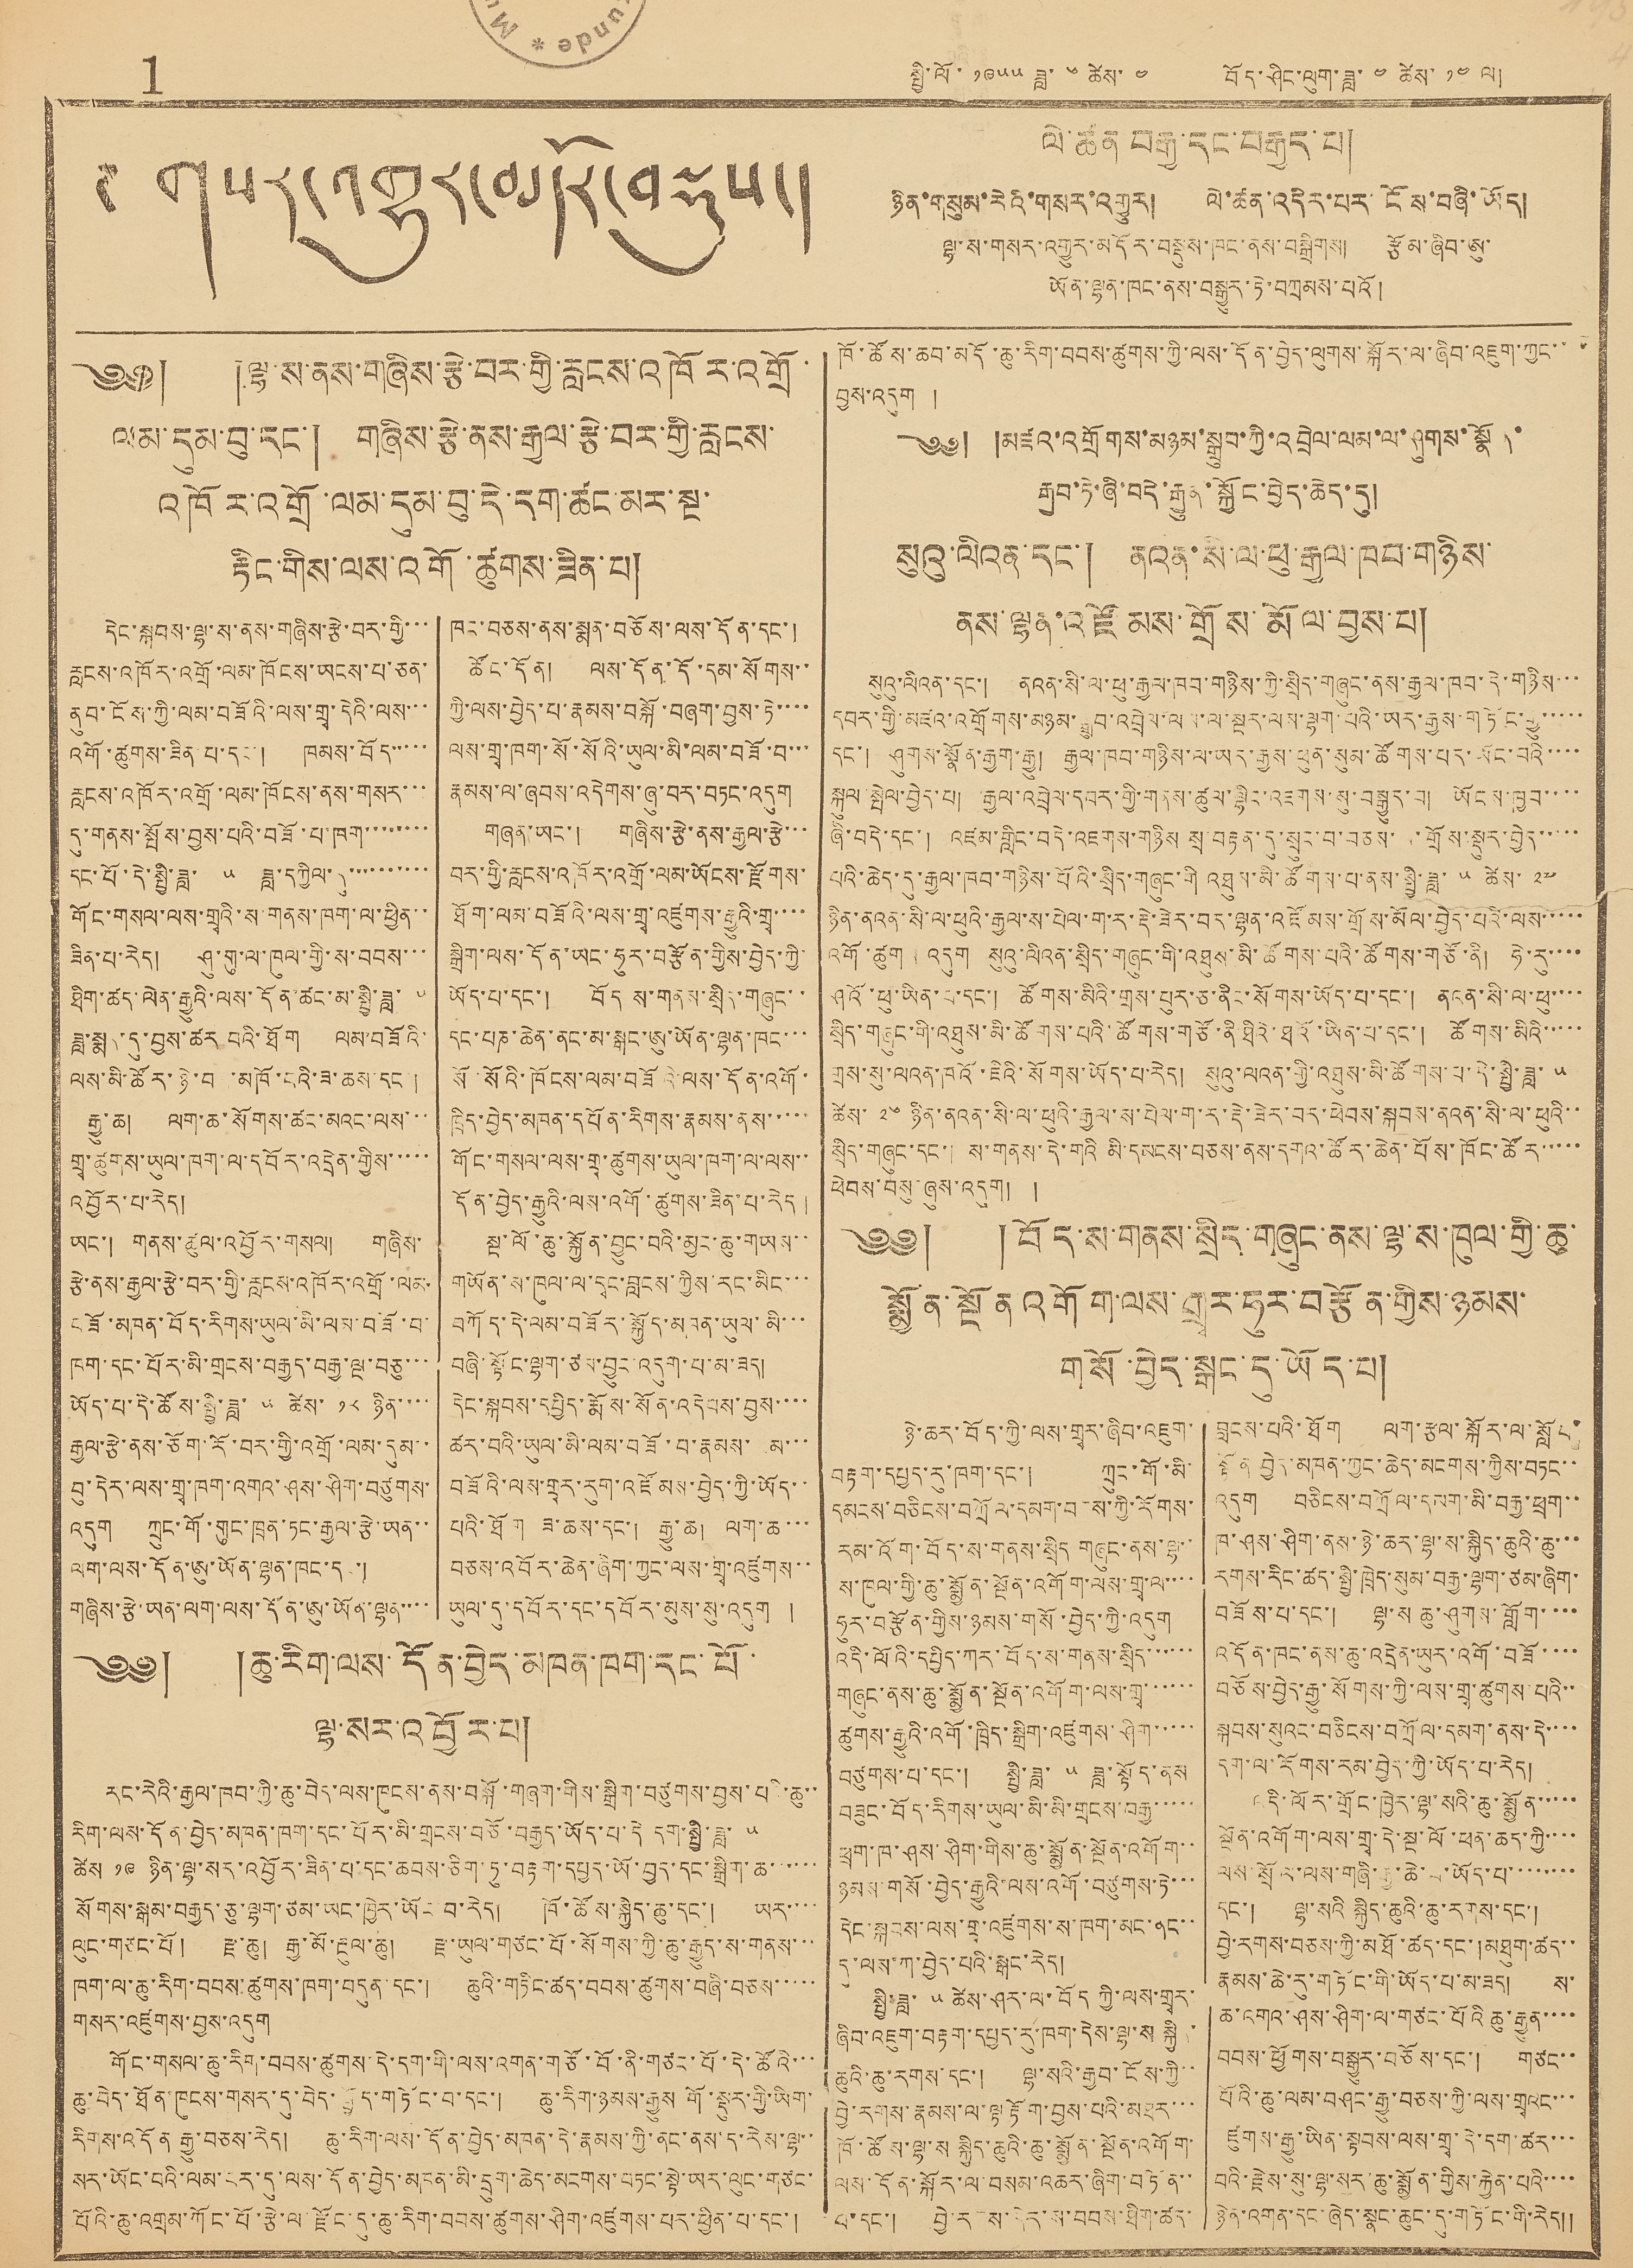1 སྤྱི་ལོ་ ༡༩༥༥ ཟླ་ ༦ ཚེས་ ༤ བོད་ཤིང་ལུག་ཟླ་༤་ཚེས་ ༡༤ ལ།
༈ གསར་འགྱུར་མདོར་བསྡུས་།
ལེ་ཚན་བརྒྱ་དང་བརྒྱད་པ།
ཉིན་གསུམ་རེའི་གསར་འགྱུར། ལེ་ཚན་འདི་པར་ངོས་བཞི་ཡོད།
ལྷ་ས་གསར་འགྱུར་མདོར་བསྡུས་ཁང་ནས་བསྒྲིགས། རྩོམ་ཞིབ་ཨུ་
ཡོན་ལྷན་ཁང་ནས་བསྒྱུར་ཏེ་བཀྲམས་པའོ།
༄༅། །ལྷ་ས་ནས་གཞིས་རྩེ་བར་གྱི་རླངས་འཁོར་འགྲོ་
ལམ་བུ་དང། གཞིས་རྩེ་ནས་རྒྱལ་རྩེ་བར་གྱི་རླངས་
འཁོར་འགྲོ་ལམ་དུམ་བུ་དེ་དག་ཚང་མར་སྔ་
རྟིང་གིས་ལས་འགོ་ཚུགས་ཟིན་པ།
དེང་སྐབས་ལྷ་ས་ནས་གཞིས་རྩེ་བར་གྱི་་་
རླངས་འཁོར་འགྲོ་ལམ་ཁོངས་ཡངས་པ་ཅན་
ནུབ་ངོས་ཀྱི་ལམ་བཟོའི་ལས་གྲྭ་དེའི་ལས་་་
འགོ་ཚུགས་ཟིན་པ་དང་། ཁམས་བོད་་་་་
རླངས་འཁོར་འགྲོ་ལམ་ཁོངས་ནས་གསར་་་
དུ་གནས་སྤོས་བྱས་པའི་བཟོ་པ་ཁག་་་་་་་་
དང་པོ་དེ་སྤྱི་ཟླ་ ༥ ཟླ་དཀྱིལ་དུ་་་་་་་་་་་
གོང་གསལ་ལས་གྲྭའི་ས་གནས་ཁག་ལ་ཕྱིན་་
ཟིན་པ་རེད། ཤུ་གུ་ལ་ཁུལ་གྱི་ས་བབས་་་
ཐིག་ཚད་ལེན་རྒྱུའི་ལས་དོན་ཚང་མ་སྤྱི་ཟླ་ ༥
ཟླ་སྨད་དུ་བྱས་ཚར བའི་ཐོག ལམ་བཟོའི་
ལས་མི་ཚོར་ཉེ་བ་ མཁོ་ངའི་ཟ་ཆས་དང་།
རྒྱུ་ཆ། ལག་ཆ་སོགས་ཚང་མའང་ལས་་་
གྲྭ་ཚུགས་ཡུལ་ཁག་ལ་དབོར་འདྲེན་གྱིས་་་་་
འབྱོར་པ་རེད།
ཨང་། གནས་ཚུལ་འབྱོར་གསལ། གཞིས་
རྩེ་ནས་རྒྱལ་རྩེ་བར་གྱི་རླངས་འཁོར་འགྲོ་ལམ་
བཟོ་མཁན་བོད་རིགས་ཡུལ་མི་ལམ་བཟོ་བ་
ཁག་དང་པོར་མི་གྲངས་བརྒྱད་བརྒྱ་ལྔ་བཅུ་་་
ཡོད་པ་དེ་ཚོས་སྤྱི་ཟླ་ ༥ ཚེས་ ༡༨ ཉིན་་་་
རྒྱལ་རྩེ་ནས་ཅོག་རོ་བར་གྱི་འགྲོ་ལམ་དུམ་་
བུ་དེར་ལས་གྲྭ་ཁག་འགའ་ཤས་ཤིག་བཙུགས་
འདུག ཀྲུང་གོ་གུང་ཁྲན་ཏང་རྒྱལ་རྩེ་ཡན་་
ལག་ནས་དོན་ཨུ་ཡོན་ལྷན་ཁང་དང་།
གཞིས་རྩེ་ཡན་ལག་ལས་དོན་ཨུ་ཡོན་ལྷན་་་་
ཁང་བཅས་ནས་སྨན་བཅོས་ལས་དོན་དང་།
ཚོང་དོན། ལས་དོན་དོ་དམ་སོགས་་
ཀྱི་ལས་བྱེད་པ་རྣམས་བསྐོ་བཞག་བྱས་ཏེ་་་་
ལས་གྲྭ་ཁག་སོ་སོའི་ཡུལ་མི་ལམ་བཟོ་བ་་་
རྣམས་ལ་ཞབས་འདེགས་ཞུ་བར་བཏང་འདུག
གཞན་ཡང་། གཞིས་རྩེ་ནས་རྒྱལ་རྩེ་་་
བར་གྱི་རླངས་འཁོར་འགྲོ་ལམ་ཡོངས་རྫོགས་
ཐོག་ལམ་བཟོའི་ལས་གྲྭ་འཛུགས་རྒྱུའི་གྲྭ་་་་
སྒྲིག་ལས་དོན་ཡང་ཧུར་བརྩོན་གྱིས་བྱེད་ཀྱི་
ཡོད་པ་དང་། བོད ས་གནས་སྲིད་གཞུང་་
དང་པཎ་ཆེན་ནང་མ་སྒང་ཨུ་ཡོན་ལྷན་ཁང་་་
སོ་སོའི་ཁོངས་ལམ་བཟོའི་ལས་དོན་འགོ་
ཁྲིད་བྱེད་མཁན་དཔོན་རིགས་རྣམས་ནས་་་་་
གོང་གསལ་ལས་གྲྭ་ཚུགས་ཡུལ་ཁག་ལ་ལས་་
དོན་བྱེད་རྒྱུའི་ལས་འགོ་ཚུགས་ཟིན་པ་རེད།
སྔ་ལོ་ཆུ་སྐྱོན་བྱུང་བའི་མྱང་ཆུ་གཡས་་
གཡོན་ས་ཁུལ་ལ་དྭང་བླངས་ཀྱིས་རང་མིང་་་
བཀོད་དེ་ལམ་བཟོར་སྐྱོད་མཁན་ཡུལ་མི་་་
བཞི་སྟོང་ལྷག་ཙམ་བྱུང་འདུག་པ་མ་ཟད།
དེང་སྐབས་དཔྱིད་རྨོས་སོན་འདེབས་བྱས་་་་
ཚར་བའི་ཡུལ་མི་ལམ་བཟོ་བ་རྣམས་ མ་་་
བཟོའི་ལས་གྲྭར་རུག་འཇོམས་བྱེད་ཀྱི་ཡོད་་
པའི་ཐོག ཟ་ཆས་དང་། རྒྱུ་ཆ། ལག་ཆ་་་
བཅས་འབོར་ཆེན་ཞིག་ཀྱང་ལས་གྲྭ་འཛུགས་་
ཡུལ་དུ་དབོར་དང་དབོར་མུས་སུ་འདུག། །
༄༅། །ཆུ་རིག་ལས་དོན་བྱེད་མཁན་ཁག་དང་པོ་
ལྷ་སར་འབྱོར་པ།
རང་རེའི་རྒྱལ་ཁབ་ཀྱི་ཆུ་བེད་ལས་ཁུངས་ནས་བསྐོ་གཞག་གིས་སྒྲིག་བཙུགས་བྱས་པའི་ཆུ་་
རིག་ལས་དོན་བྱེད་མཁན་ཁག་དང་པོར་མི་གྲངས་བཅོ་བརྒྱད་ཡོད་པ་དེ་དག་སྤྱི་ཟླ་ ༥
ཚེས་ ༡༩ ཉིན་ལྷ་སར་འབྱོར་ཟིན་པ་དང་ཆབས་ཅིག་ཏུ་བརྟག་དཔྱད་ཡོ་བྱད་དང་སྒྲིག་ཆ་་་་་
སོགས་སྒམ་བརྒྱད་ཅུ་ལྷག་ཙམ་ཡང་ཁྱེར་ཡོང་བ་རེད། ཁོ་ཚོས་སྐྱེད་ཆུ་དང་། ཡར་་་་
ལུང་གཙང་པོ། རྫ་ཆུ། རྒྱ་མོ་རྔུལ་ཆུ། རྫ་ཡུལ་གཙང་པོ་སོགས་ཀྱི་ཆུ་རྒྱུད་ས་གནས་་་
ཁག་ལ་ཆུ་རིག་བབས་ཚུགས་ཁག་བདུན་དང་། ཆུའི་གཏིང་ཚད་བབས་ཚུགས་བཞི་བཅས་་་་་
གསར་འཛུགས་བྱས་འདུག
གོང་གསལ་ཆུ་རིག་བབས་ཚུགས་དེ་དག་གི་ལས་འགན་གཙོ་བོ་ནི་གཙང་པོ་དེ་ཚོའི་་་
ཆུ་བེད་ཐོན་ཁུངས་གསར་དུ་བེད་སྤྱོད་གཏོང་བ་དང་། ཆུ་རིག་ཉམས་རྒྱུས གོ་སྡུར་གྱི་ཡིག་
རིགས་འདོན་རྒྱུ་བཅས་རེད། ཆུ་རིག་ལས་དོན་བྱེད་མཁན་དེ་རྣམས་ཀྱི་ནང་ནས་ད་རེས་ལྷ་་
སར་ཡོང་བའི་ལམ་བར་དུ་ལས་དོན་བྱེད་མཁན་མི་དྲུག་ཆེད་མངགས་བཏང་སྟེ་ཡར་ལུང་གཙང་
པོའི་ཆུ་འགྲམ་ཀོང་པོ་རྩེ་ལ་རྫོང་དུ་ཆུ་རིག་བབས་ཚུགས་ཤིག་འཛུགས་པར་ཕྱིན་པ་དང་།
ཁོ་ཚོས་ཆམ་མདོ་ཆུ་རིག་བབས་ཚུགས་ཀྱི་ལས་དོན་བྱེད་ལུགས་སྐོར་ལ་ཞིབ་འཇུག་ཀྱང་་
བྱས་འདུག།
༄༅། །མཛའ་འགྲོགས་མཉམ་སྒྲུབ་ཀྱི་འབྲེལ་ལམ་ལ་ཤུགས་སྣོན་
རྒྱབ་ཏེ་ཞི་བདེ་རྒྱུན་སྐྱོང་བྱེད་ཆེད་དུ།
སུའུ་ལིའན་དང་། ནའན་སི་ལ་ཕུ་རྒྱལ་ཁབ་གཉིས་
ནས་ལྷན་འཛོམས་གྲོས་མོལ་བྱས་པ།
སུའུ་ལིའན་དང་། ནའན་སི་ལ་ཕུ་རྒྱལ་ཁབ་གཉིས་ཀྱི་སྲིད་གཞུང་ནས་རྒྱལ་ཁབ་དེ་གཉིས་་་
དབར་གྱི་མཛའ་འགྲོགས་མཉམ་སྒྲུབ་འབྲེལ་ལམ་ལ་སྔར་ལས་ལྷག་པའི་ཡར་རྒྱས་གཏོང་རྒྱུ་་་་་
དང་། ཤུགས་སྣོན་རྒྱག་རྒྱུ། རྒྱལ་ཁབ་གཉིས་ལ་ཡར་རྒྱས་ཕུན་སུམ་ཚོགས་པར་ཡོང་བའི་་་་
སྐུལ་སྤེལ་བྱེད་པ། རྒྱལ་འབྲེལ་དབར་གྱི་གནས་ཚུལ་ལྷིང་འཇགས་སུ་བསྒྱུར་པ། ཡོངས་ཁྱབ་་་་
ཞི་བདེ་དང་། འཛམ་གླིང་བདེ་འཇགས་གཉིས སྲ་བརྟན་དུ་སྲུང་བ་བཅས་ གྲོས་སྡུར་བྱེད་་་་་
པའི་ཆེད་དུ་རྒྱལ་ཁབ་གཉིས་པོའི་སྲིད་གཞུང་གི འཐུས་མི་ཚོགས་པ་ནས་སྤྱི་ཟླ་ ༥ ཚེས་ ༢༧
ཉིན་ནའན་སི་ལ་ཕུའི་རྒྱལ་ས་པེལ་ག་ར་རྡེ་ཟེར་བར་ལྷན་འཛོམས་གྲོས་མོལ་བྱེད་པའི་ལས་་་་་
འགོ་ཚུག འདུག སུའུ་ལིའན་སྲིད་གཞུང་གི་འཐུས་མི་ཚོགས་པའི་ཚོགས་གཙོ་ནི། ཧེ་རུ་་་་
ཤའོ་ཕུ་ཡིན་པ་དང་། ཚོགས་མིའི་གྲས་པུར་ཅ་ནིང་སོགས་ཡོད་པ་དང་། ནའན་སི་ལ་ཕུ་་་་
སྲིད་གཞུང་གི་འཐུས་མི་ཚོགས་པའི་ཚོགས་གཙོ་ནི་ཐའོ་ཡིན་པ་དང་། ཚོགས་མིའི་་་་་
གྲས་སུ་ལའན་ཁའོ་ཇིའི་སོགས་ཡོད་པ་རེད། སུའུ་ལའན་གྱི་འཐུས་མི་ཚོགས་པ་དེ་སྤྱི་ཟླ་ ༥
ཚེས་ ༢༦ ཉིན་ནའན་སི་ལ་ཕུའི་རྒྱལ་ས་པེལ་ག་ར་རྡེ་ཟེར་བར་ཕེབས་སྐབས་ནའན་སི་ལ་ཕུའི་་
སྲིད་གཞུང་དང་། ས་གནས་དེ་གའི་མི་དམངས་བཅས་ནས་དགའ་ཚོར་ཆེན་པོས་ཁོང་ཚོར་་་་་
ཕེབས་བསུ་ཞུས་འདུག། །
༄༅། །བོད་ས་གནས་སྲིད་གཞུང་ནས་ལྷ་ས་ཁུལ་གྱི་ཆུ་
སྨྱོན་སྔོན་འགོག་ལས་གྲྭར་ཧུར་བརྩོན་གྱིས་ཉམས་
གསོ་བྱེད་སྒང་དུ་ཡོད་པ།
ཉེ་ཆར་བོད་ཀྱི་ལས་གྲྭར་ཞིབ་འཇུག་
བརྟག་དཔྱད་རུ་ཁག་དང་། ཀྲུང་གོ་མི་
དམངས་བཅིངས་བཀྲོལ་དམགས་ཀྱི་རོགས་
རམ་འོག་བོད་ས་གནས་སྲིད གཞུང་ནས་ལྷ་་
ས་ཁུལ་གྱི་ཆུ་སྨྱོན་སྔོན་འགོག་ལས་གྲྭ་ལ་་་་
ཧུར་བརྩོན་གྱིས་ཉམས་གསོ་བྱེད་ཀྱི་འདུག
འདི་ལོའི་དཔྱིད་ཀར་བོད་ས་གནས་སྲིད་་་་་་
གཞུང་ནས་ཆུ་སྨྱོན་སྔོན་འགོག་ལས་གྲྭ་་་་་་
ཚུགས་རྒྱུའི་འགོ་ཁྲིད་སྒྲིག་འཛུགས་ཤིག་་་་་
བཙུགས་པ་དང་། སྤྱི་ཟླ་ ༥ ཟླ་སྟོད་ནས
བཟུང་བོད་རིགས་ཡུལ་མི་མི་གྲངས་བརྒྱ་་་་་
ཕྲག་ཁ་ཤས་ཤིག་གིས་ཆུ་སྨྱོན་སྔོན་འགོག་་
ཉམས་གསོ་བྱེད་རྒྱུའི་ལས་འགོ་བཙུགས་ཏེ་་་
དེང་སྐབས་ལས་གྲྭ་འཛུགས་ས་ཁག་མང་ནང་་
དུ་ལས་ཀ་བྱེད་པའི་སྒང་རེད།
སྤྱི་ཟླ་ ༥ ཚེས་ཤར་ལ་བོད ཀྱི་ལས་གྲྭར་
ཞིབ་འཇུག་བརྟག་དཔྱད་རུ་ཁག་དེས་ལྷ་ས སྐྱིད་
ཆུའི་ཆུ་རགས་དང་། ལྷ་སའི་རྒྱབ་ངོས་ཀྱི་་
བྱེ་རགས་རྣམས་ལ་ལྟ་རྟོག་བྱས་པའི་མཐར་་་
ཁོ་ཚོས་ལྷ་ས སྐྱིད་ཆུའི་ཆུ་སྨྱོན་སྔོན་འགོག་
ལས་དོན་སྐོར་ལ་བསམ་འཆར་ཞིག་བཏན་་
པ་དང་། བྱེ་རགས་དེར་ས་བབས་ཐིག་ཚད་
བླངས་པའི་ཐོག ལག་རྩལ་སྐོར་ལ་སློབ་
སྟོན་བྱེད་མཁན་ཀྱང་ཆེད་མངགས་ཀྱིས་བཏང་་
འདུག བཅིངས་བཀྲོལ་དམག་མི་བརྒྱ་ཕྲག་་
ཁ་ཤས་ཤིག་ནས་ཉེ་ཆར་ལྷ་ས་སྐྱིད་ཆུའི་ཆུ་་་
རགས་རིང་ཚད་སྤྱི་ཁྲེད་སུམ་བརྒྱ་ལྷག་ཙམ་ཞིག་
བཟོས་པ་དང་། ལྷ་ས་ཆུ་ཤུགས་གློག་་་་
འདོན་ཁང་ནས་ཆུ་འདྲེན་ཡུར་འགོ་བཟོ་་་་
བཅོས་བྱེད་རྒྱུ་སོགས་ཀྱི་ལས་གྲྭ་ཚུགས་པའི་་
སྐབས་སུའང་བཅིངས་བཀྲོལ་དམག་ནས་དེ་་་་
དག་ལ་རོགས་རམ་བྱེད་ཀྱི་ཡོད་པ་རེད།
འདི་ལོར་གྲོང་ཁྱེར་ལྷ་སའི་ཆུ་སྨྱོན་་་་་
སྔོན་འགོག་ལས་གྲྭ་དེ་སྔ་ལོ་ཕན་ཆད་ཀྱི་་་་
ལས་སྲོལ་ལས་གཞི་རྒྱ་ཆེ་བ་ཡོད་པ་་་་་་་
དང་། ལྷ་སའི་སྐྱིད་ཆུའི་ཆུ་རགས་དང་།
བྱེ་རགས་བཅས་ཀྱི་མཐོ་ཚད་དང་། མཐུག་ཚད་་
རྣམས་ཆེ་རུ་གཏོང་གི་ཡོད་པ་མ་ཟད། ས་
ཆ་འགའ་ཤས་ཤིག་ལ་གཙང་པོའི་ཆུ་རྒྱུན་་་་
བབས་ཕྱོགས་བསྒྱུར་བཅོས་དང་། གཙང་་
པོའི་ཆུ་ལམ་བཤང་རྒྱུ་བཅས་ཀྱི་ལས་གྲྭའང་་་
ཛུགས་རྒྱུ་ཡིན་སྟབས་ལས་གྲྭ་དེ་དག་ཚར་་་
བའི་རྗེས་སུ་ལྷ་སར་ཆུ་སྨྱོན་གྱིས་རྐྱེན་པའི་་་་
ཉེན་འགན་དང་ཞེད་སྣང་ཆུང་དུ་གཏོང་གི་རེད།།
